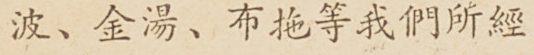波、金湯、布拖等我們所經
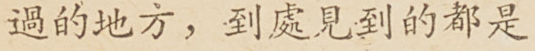過的地方，到處見到的都是
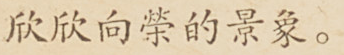欣欣向榮的景象。
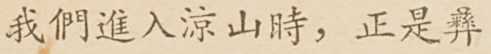我們進入涼山時，正是彝
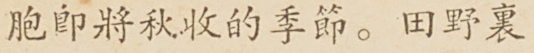胞卽將秋收的季節。田野裏
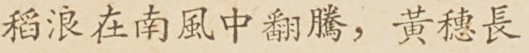稻浪在南風中翻騰，黃穗長
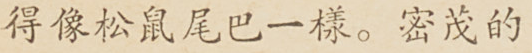得像松鼠尾巴一樣。密茂的
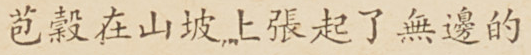苞穀在山坡上張起了無邊的
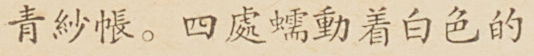青紗帳。四處蠕動着白色的
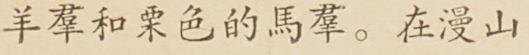羊羣和栗色的馬羣。在漫山
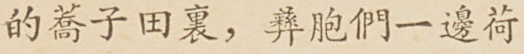的蕎子田裏，彝胞們以便荷
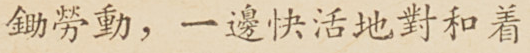鋤勞動，一邊快活地對和着
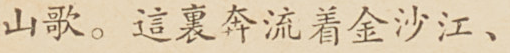山歌。這裏奔流着金沙江、
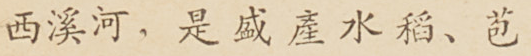西溪河，是盛產水稻、苞
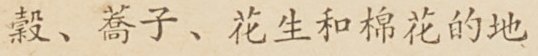穀、蕎子、花生和棉花的地
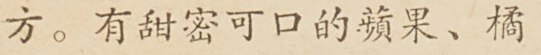方。有甜密可口的蘋果、橘
